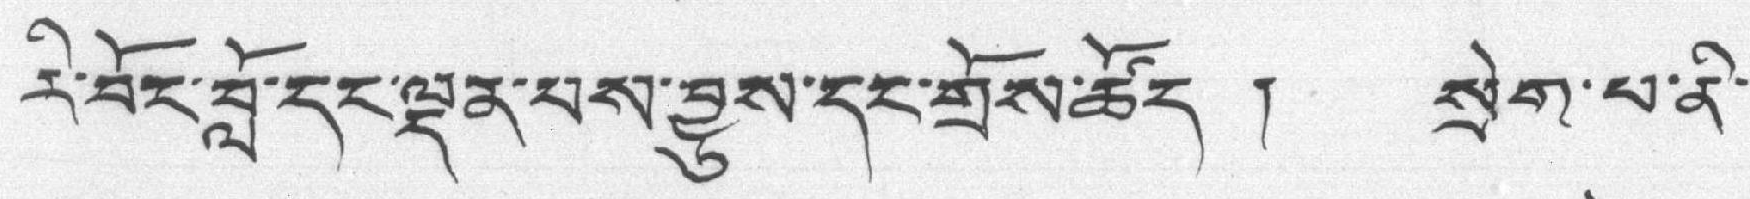རི་བོང་བློ་དང་ལྡན་པས་བྱུས་དང་གྲོས་ཚོད ། སྲེག་པ་ནི་
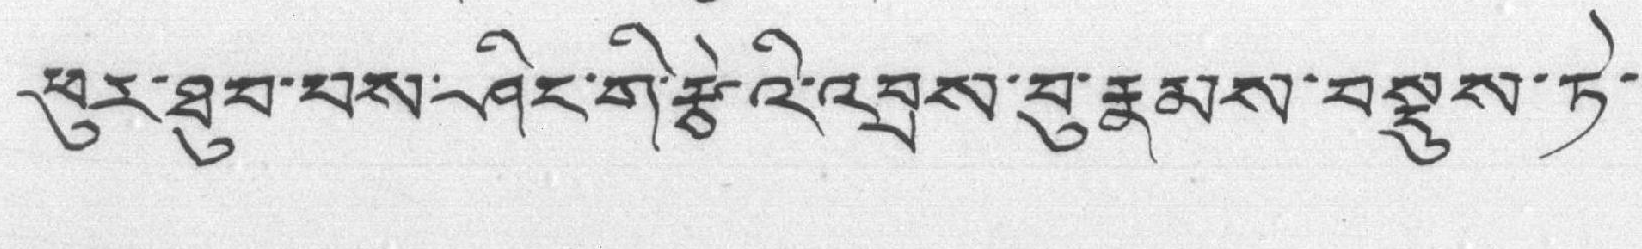ཕུར་ཐུབ་པས་ཤིང་གི་རྩེའི་འབྲས་བུ་རྣམས་བསྡུས་ཏེ་
